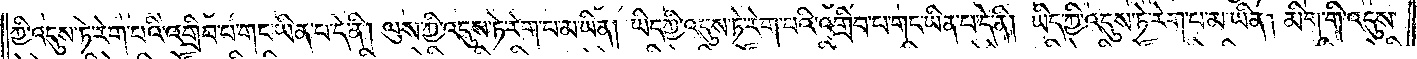ཀྱི་འདུས་ཏེ་རེག་པའི་འགྲིབ་པ་གང་ཡིན་པ་དེ་ནི། ལུས་ཀྱི་འདུས་ཏེ་རེག་པ་མ་ཡིན། ཡིད་ཀྱི་འདུས་ཏེ་རེག་པའི་འགྲིབ་པ་གང་ཡིན་པ་དེ་ནི། ཡིད་ཀྱི་འདུས་ཏེ་རེག་པ་མ་ཡིན། མིག་གི་འདུས་
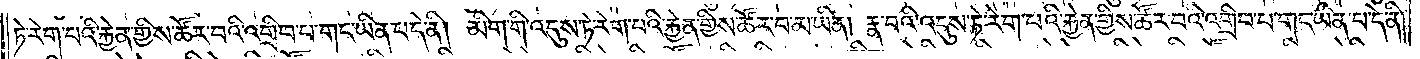ཏེ་རེག་པའི་རྐྱེན་གྱིས་ཚོར་བའི་འགྲིབ་པ་གང་ཡིན་པ་དེ་ནི། མིག་གི་འདུས་ཏེ་རེག་པའི་རྐྱེན་གྱིས་ཚོར་བ་མ་ཡིན། རྣ་བའི་འདུས་ཏེ་རེག་པའི་རྐྱེན་གྱིས་ཚོར་བའི་འགྲིབ་པ་གང་ཡིན་པ་དེ་ནི་
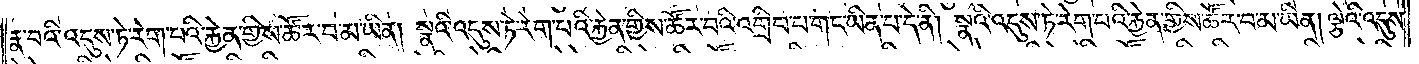རྣ་བའི་འདུས་ཏེ་རེག་པའི་རྐྱེན་གྱིས་ཚོར་བ་མ་ཡིན། སྣའི་འདུས་ཏེ་རེག་པའི་རྐྱེན་གྱིས་ཚོར་བའི་འགྲིབ་པ་གང་ཡིན་པ་དེ་ནི། སྣའི་འདུས་ཏེ་རེག་པའི་རྐྱེན་གྱིས་ཚོར་བ་མ་ཡིན། ལྕེའི་འདུས་
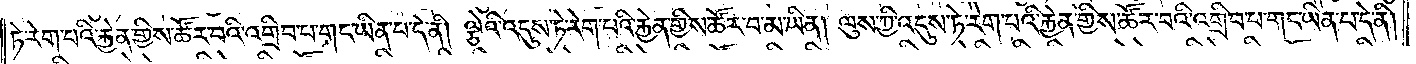ཏེ་རེག་པའི་རྐྱེན་གྱིས་ཚོར་བའི་འགྲིབ་པ་གང་ཡིན་པ་དེ་ནི། ལྕེའི་འདུས་ཏེ་རེག་པའི་རྐྱེན་གྱིས་ཚོར་བ་མ་ཡིན། ལུས་ཀྱི་འདུས་ཏེ་རེག་པའི་རྐྱེན་གྱིས་ཚོར་བའི་འགྲིབ་པ་གང་ཡིན་པ་དེ་ནི།
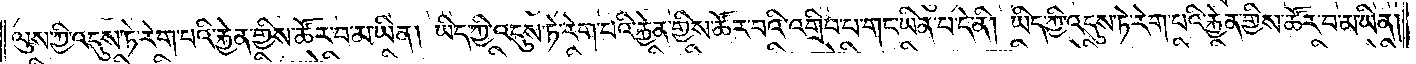ལུས་ཀྱི་འདུས་ཏེ་རེག་པའི་རྐྱེན་གྱིས་ཚོར་བ་མ་ཡིན། ཡིད་ཀྱི་འདུས་ཏེ་རེག་པའི་རྐྱེན་གྱིས་ཚོར་བའི་འགྲིབ་པ་གང་ཡིན་པ་དེ་ནི། ཡིད་ཀྱི་འདུས་ཏེ་རེག་པའི་རྐྱེན་གྱིས་ཚོར་བ་མ་ཡིན།
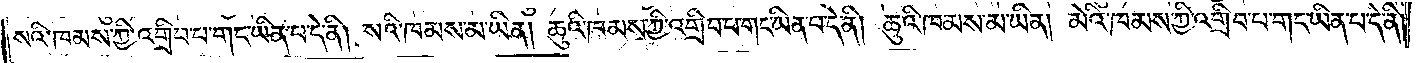སའི་ཁམས་ཀྱི་འགྲིབ་པ་གང་ཡིན་པ་དེ་ནི། སའི་ཁམས་མ་ཡིན། ཆུའི་ཁམས་ཀྱི་འགྲིབ་པ་གང་ཡིན་པ་དེ་ནི། ཆུའི་ཁམས་མ་ཡིན། མེའི་ཁམས་ཀྱི་འགྲིབ་པ་གང་ཡིན་པ་དེ་ནི།
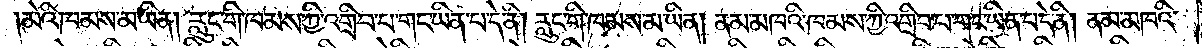མེའི་ཁམས་མ་ཡིན། རླུང་གི་ཁམས་ཀྱི་འགྲིབ་པ་གང་ཡིན་པ་དེ་ནི། རླུང་གི་ཁམས་མ་ཡིན། ནམ་མཁའི་ཁམས་ཀྱི་འགྲིབ་པ་གང་ཡིན་པ་དེ་ནི། ནམ་མཁའི་
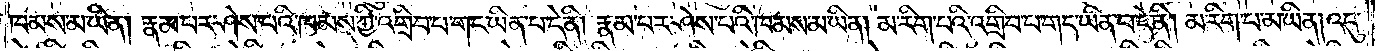ཁམས་མ་ཡིན། རྣམ་པར་ཤེས་པའི་ཁམས་ཀྱི་འགྲིབ་པ་གང་ཡིན་པ་དེ་ནི། རྣམ་པར་ཤེས་པའི་ཁམས་མ་ཡིན། མ་རིག་པའི་འགྲིབ་པ་གང་ཡིན་པ་དེ་ནི། མ་རིག་པ་མ་ཡིན། འདུ་
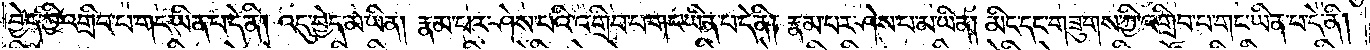བྱེད་ཀྱི་འགྲིབ་པ་གང་ཡིན་པ་དེ་ནི། འདུ་བྱེད་མ་ཡིན། རྣམ་པར་ཤེས་པའི་འགྲིབ་པ་གང་ཡིན་པ་དེ་ནི། རྣམ་པར་ཤེས་པ་མ་ཡིན། མིང་དང་གཟུགས་ཀྱི་འགྲིབ་པ་གང་ཡིན་པ་དེ་ནི།
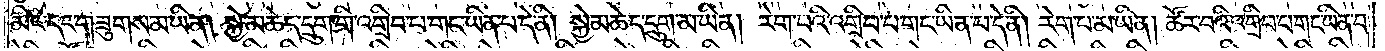མིང་དང་གཟུགས་མ་ཡིན། སྐྱེ་མཆེད་དྲུག་གི་འགྲིབ་པ་གང་ཡིན་པ་དེ་ནི། སྐྱེ་མཆེད་དྲུག་མ་ཡིན། རེག་པའི་འགྲིབ་པ་གང་ཡིན་པ་དེ་ནི། རེག་པ་མ་ཡིན། ཚོར་བའི་འགྲིབ་པ་གང་ཡིན་པ་
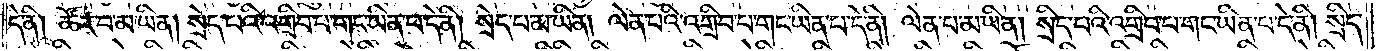དེ་ནི། ཚོར་བ་མ་ཡིན། སྲེད་པའི་འགྲིབ་པ་གང་ཡིན་པ་དེ་ནི། སྲེད་པ་མ་ཡིན། ལེན་པའི་འགྲིབ་པ་གང་ཡིན་པ་དེ་ནི། ལེན་པ་མ་ཡིན། སྲིད་པའི་འགྲིབ་པ་གང་ཡིན་པ་དེ་ནི། སྲིད་
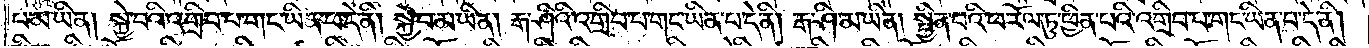པ་མ་ཡིན། སྐྱེ་བའི་འགྲིབ་པ་གང་ཡིན་པ་དེ་ནི། སྐྱེ་བ་མ་ཡིན། རྒ་ཤིའི་འགྲིབ་པ་གང་ཡིན་པ་དེ་ནི། རྒ་ཤི་མ་ཡིན། སྦྱིན་པའི་ཕ་རོལ་ཏུ་ཕྱིན་པའི་འགྲིབ་པ་གང་ཡིན་པ་དེ་ནི།
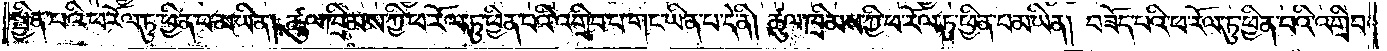སྦྱིན་པའི་ཕ་རོལ་ཏུ་ཕྱིན་པ་མ་ཡིན། ཚུལ་ཁྲིམས་ཀྱི་ཕ་རོལ་ཏུ་ཕྱིན་པའི་འགྲིབ་པ་གང་ཡིན་པ་དེ་ནི། ཚུལ་ཁྲིམས་ཀྱི་ཕ་རོལ་ཏུ་ཕྱིན་པ་མ་ཡིན། བཟོད་པའི་ཕ་རོལ་ཏུ་ཕྱིན་པའི་འགྲིབ་
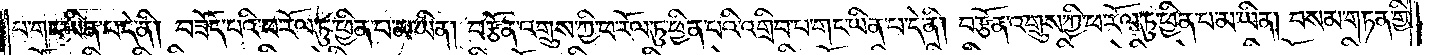པ་གང་ཡིན་པ་དེ་ནི། བཟོད་པའི་ཕ་རོལ་ཏུ་ཕྱིན་པ་མ་ཡིན། བརྩོན་འགྲུས་ཀྱི་ཕ་རོལ་ཏུ་ཕྱིན་པའི་འགྲིབ་པ་གང་ཡིན་པ་དེ་ནི། བརྩོན་འགྲུས་ཀྱི་ཕ་རོལ་ཏུ་ཕྱིན་པ་མ་ཡིན། བསམ་གཏན་གྱི་
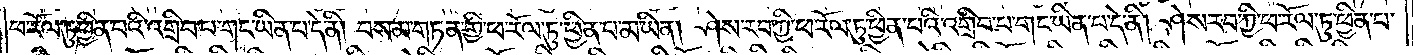ཕ་རོལ་ཏུ་ཕྱིན་པའི་འགྲིབ་པ་གང་ཡིན་པ་དེ་ནི། བསམ་གཏན་གྱི་ཕ་རོལ་ཏུ་ཕྱིན་པ་མ་ཡིན། ཤེས་རབ་ཀྱི་ཕ་རོལ་ཏུ་ཕྱིན་པའི་འགྲིབ་པ་གང་ཡིན་པ་དེ་ནི། ཤེས་རབ་ཀྱི་ཕ་རོལ་ཏུ་ཕྱིན་པ་
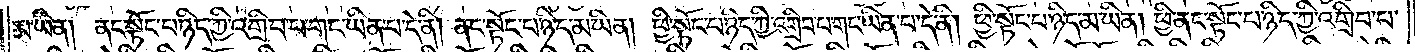མ་ཡིན། ནང་སྟོང་པ་ཉིད་ཀྱི་འགྲིབ་པ་གང་ཡིན་པ་དེ་ནི། ནང་སྟོང་པ་ཉིད་མ་ཡིན། ཕྱི་སྟོང་པ་ཉིད་ཀྱི་འགྲིབ་པ་གང་ཡིན་པ་དེ་ནི། ཕྱི་སྟོང་པ་ཉིད་མ་ཡིན། ཕྱི་ནང་སྟོང་པ་ཉིད་ཀྱི་འགྲིབ་པ་
